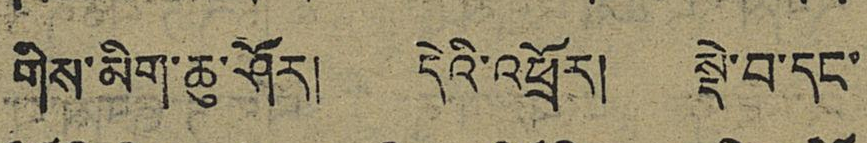གིས་མིག་ཆུ་ཤོར། དེའི་འཕྲོར། སྡེ་བ་དང་
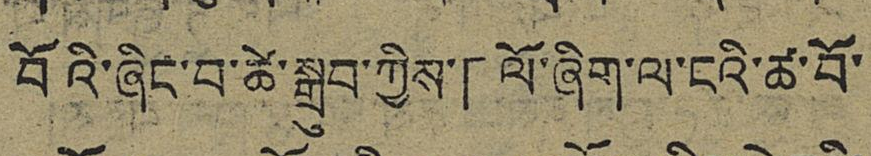བོའི་ཞིང་བ་ཚེ་སྒྲུབ་ཀྱིས་「ལོ་ཞིག་ལ་ངའི་ཚ་བོ་
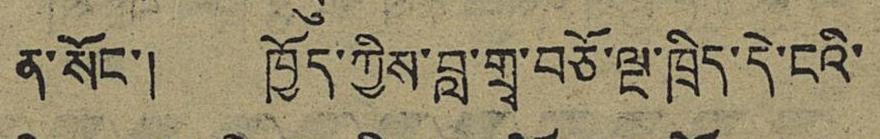ན་སོང་། ཁྱོད་ཀྱིས་བླ་གྲྭ་བཅོ་ལྔ་ཁྲིད་དེ་ངའི་
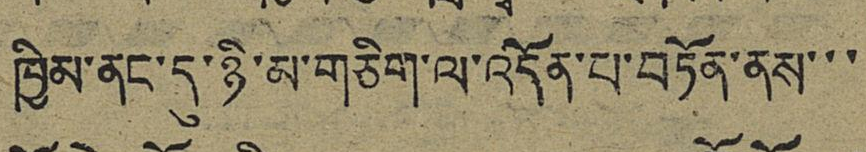ཁྱིམ་ནང་དུ་ཉི་མ་གཅིག་ལ་འདོན་པ་བཏོན་ནས་་་
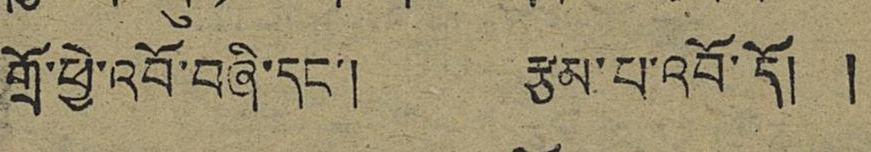གྲོ་ཕྱེ་འབོ་བཞི་དང་། རྩམ་པ་འབོ་དོ། །
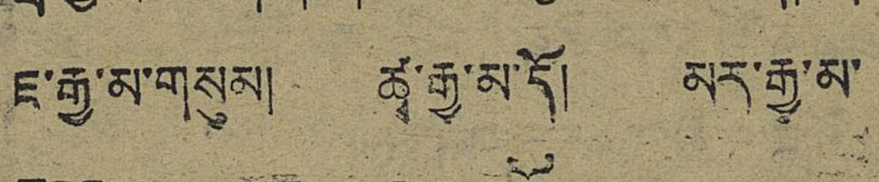ཇ་རྒྱ་མ་གསུམ། ཚྭ་རྒྱ་མ་དོ། མར་རྒྱ་མ་
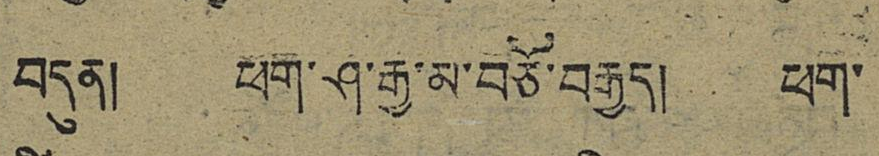བདུན། ཕག་ཤ་རྒྱ་མ་བཙོ་བརྒྱད། ཕག་
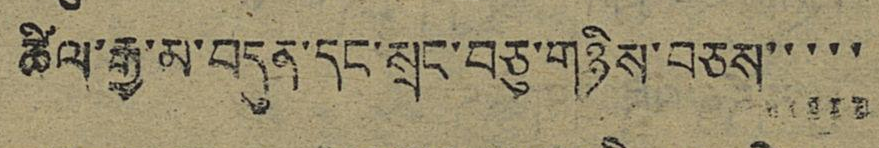ཚིལ་རྒྱ་མ་བདུན་དང་སྲང་བཅུ་གཉིས་བཅས་་་་་
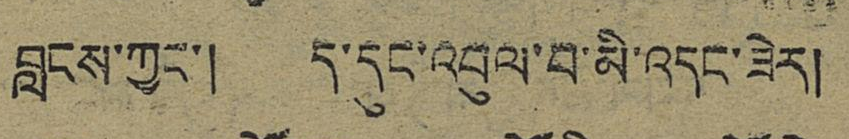བླངས་ཀྱང་། ད་དུང་འབུལ་བ་མི་འདང་ཟེར།
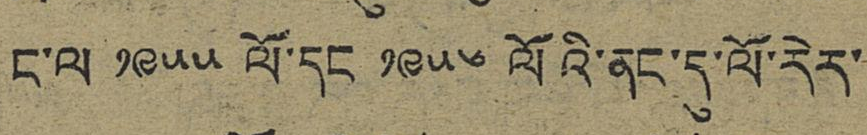ང་ལ ༡༩༥༥ ལོ་དང ༡༩༥༦ ལོའི་ནང་དུ་ལོ་རེར་
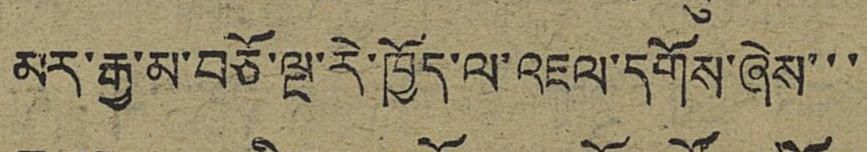མར་རྒྱ་མ་བཅོ་ལྔ་རེ་ཁྱོད་ལ་འཇལ་དགོས་ཞེས་་
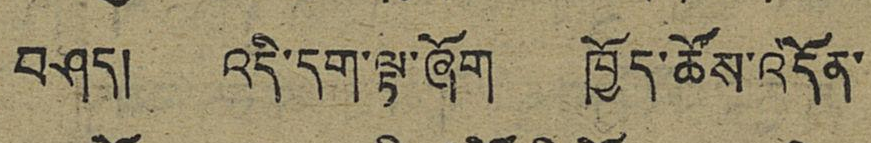བཤད། འདི་དག་ལྟ་ཞོག ཁྱོད་ཚོས་འདོན་
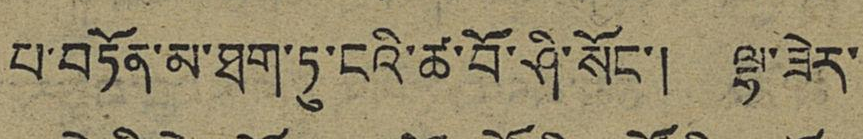པ་བཏོན་མ་ཐག་ཏུ་ངའི་ཚ་བོ་ཤི་སོང་། ལྷ་ཟེར་
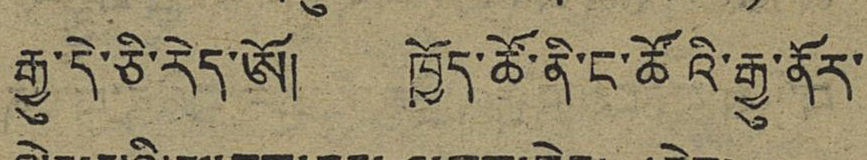རྒྱུ་དེ་ཅི་རེད་ཨོ། ཁྱོད་ཚོ་ནི་ང་ཚོའི་རྒྱུ་ནོར་
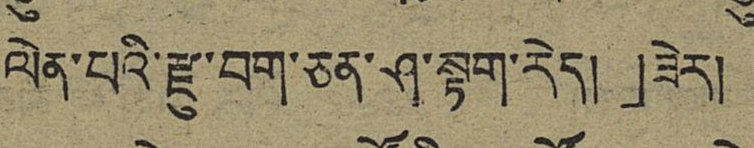ལེན་པའི་རྫུ་བག་ཅན་ཤ་སྟག་རེད།」ཟེར།
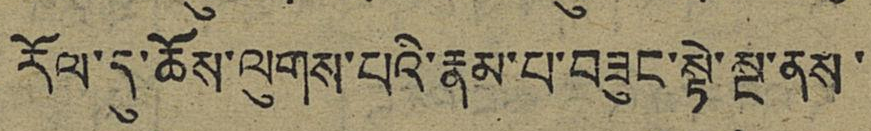རོལ་དུ་ཆོས་ལུགས་པའི་རྣམ་པ་བཟུང་སྟེ་སྔ་ནས་
